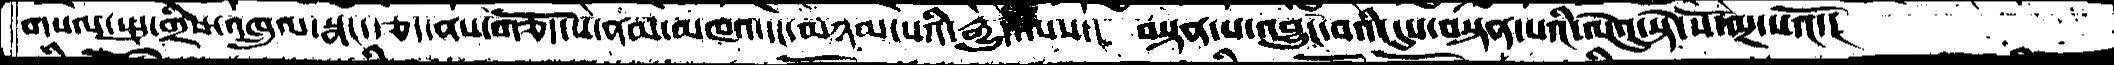གསལ་སྤུ་གྲིས་འཁྲུལ་སྣང་རྩད་ནས་གཅོད་པ་ནམ་མཁའ་དང་མཉམ་པའི་རྒྱུད་ལས་།  བསྟན་པ་འབྱུང་བའི་དུས་བསྟན་པའི་ལེའུ་སྟེ་སོ་ལྔ་པའོ་།
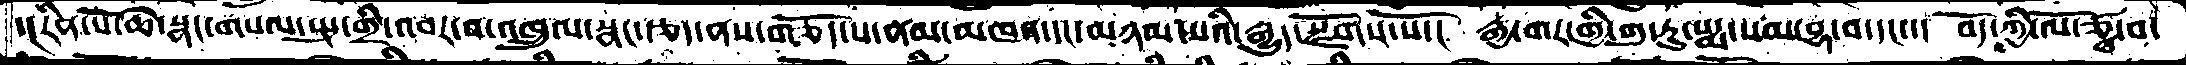་།རིན་པོ་ཆེ་སྣང་གསལ་སྤུ་གྲི་འབར་བ་འཁྲུལ་སྣང་རྩད་ནས་གཅོད་པ་ནམ་མཁའ་དང་མཉམ་པའི་རྒྱུད་སྫོགས་སོ་།  རྒྱ་གར་གྱི་གུ་རུ་པདྨ་སམ་བྷ་བ་དང་་།  བོད་ཀྱི་ལོ་ཙཱ་བ་
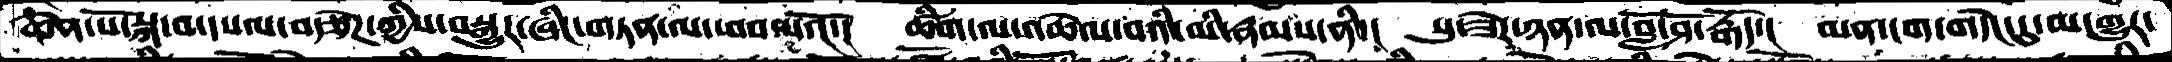ཆེན་པོ་སྐ་བ་དཔལ་བརྩེཌ་ཀྱིས་བསྒྱུར་ཞིང་གཏན་ལ་ཕབ་པའོ་།  ཚིག་ལ་འཆེལ་བའི་མི་རྣམས་ནི་།  སུ་ཟེར་ཉན་ལ་བློ་ཤོ་རྒོད་།  མན་ངག་གདེང་དུ་མ་གྱུར་
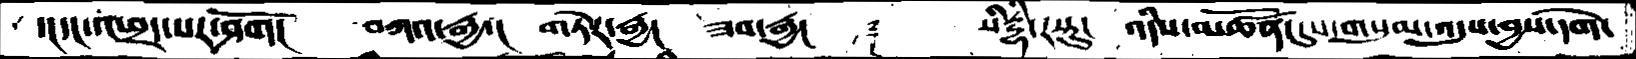་།དང་འཕྲད་པར་ཤོག།   བཀའ་རྒྱ་།  གཏེར་རྒྱ།  ཟབ་རྒྱ།   ༈  སིརྡྷི་རསཱུ།  འདིས་མཚོན་དུས་གསུམ་འདུས་བྱས་དགེ་
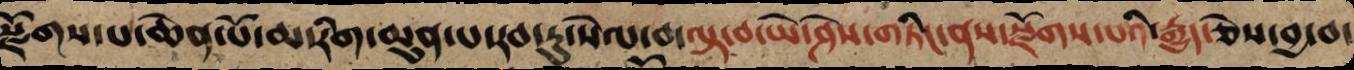རྫོགས་པ་ཆེན་པོ་མ་རིག་མུན་པ་རབ་ཏུ་སེལ་བ་ལྟ་བ་ཡེ་ཤེས་གཏིང་ནས་སྫོགས་པའི་རྒྱུད་ཅེས་བྱ་བ་
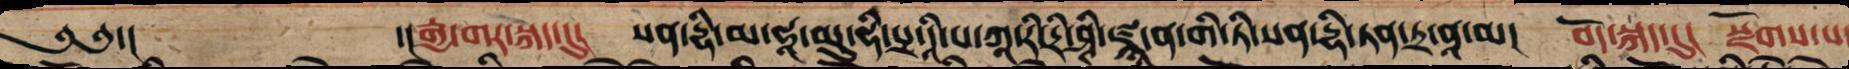༄༅་།  ་།རྒྱ་གར་སྐད་དུ། སན་དྷི་མ་ཧཱ་མུ་ཧི་པྲ་དཱི་ཀཱ་རི་ཤི་ཛྙ་ན་གི་ཏི་སན་དྷི་ཏན་ཏྲ་ནཱ་མ། བོད་སྐད་དུ།  སྫོགས་པ་
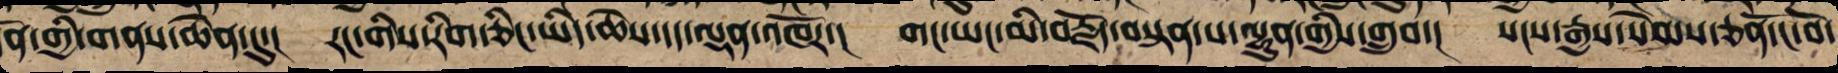དོན་གྱི་གནས་ཆེན་དུ་། རང་གིས་རིག་ཅིང་ཡིད་ཆེས་དད་ལྡན་འཁོར་། གང་ཡང་མི་བརྗོད་བསྟན་པ་ལྷུན་གྱིས་བཞུགས་། སངས་རྒྱས་སེམས་ཅན་ངོ་བོ་
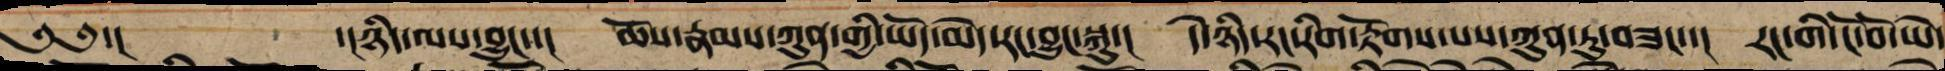༄༅་། ་།ཉིད་ལས་བྱུང་། ཆོས་རྣམས་ཀུན་གྱི་ཡོད་མེད་རང་བྱུང་སྐུ། དེ་ཉིད་རང་རིག་རྟོགས་པས་ཀུན་ཏུ་བཟང་། རང་གི་ངོ་བོ་ཡེ་
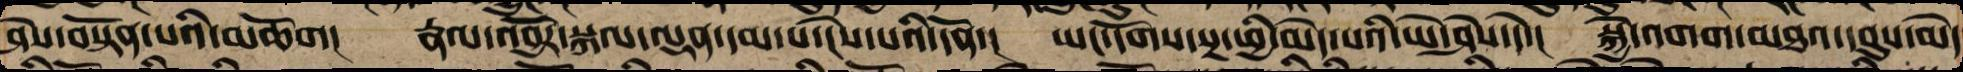ཤེས་བསྟོན་པའི་མཆོག།  རྣལ་འབྱོར་སྐལ་ལྡན་དམ་པ་ངེས་པའི་དོན་། ཡང་དོགས་སྔ་ཕྱི་མེད་པའི་ཡེ་ཤེས་དེ་། སྐྱེ་འགག་མཐའ་དབུས་མེད་
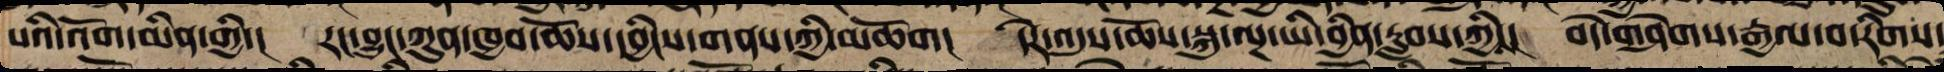པའི་འོག་མིན་གྱི་། རང་བྱུང་ཀུན་ཁྱབ་ཆོས་དབྱིངས་གནས་ཀྱི་མཆོག། དེར་འདུས་ཆོས་སྐུ་ལྔ་ཡི་བྱིན་རླབས་ཀྱིས་། བདེ་གཤེགས་རྒྱལ་བ་རིགས་
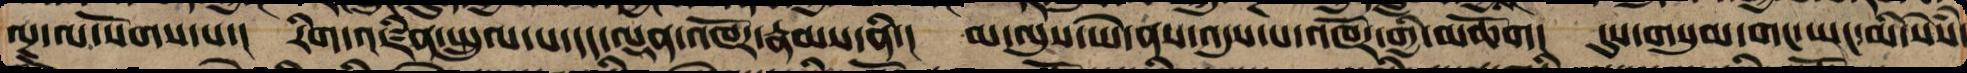ལྔ་ལ་སོགས་པ་། རིག་འཛིན་སྤྲུལ་པ་དད་ལྡན་འཁོར་རྣམས་ནི་། མ་ལུས་ཡེ་ནས་འདུས་པའི་འཁོར་གྱི་མཆོག། དུས་གསུམ་གང་ཡང་མི་སེྃས་
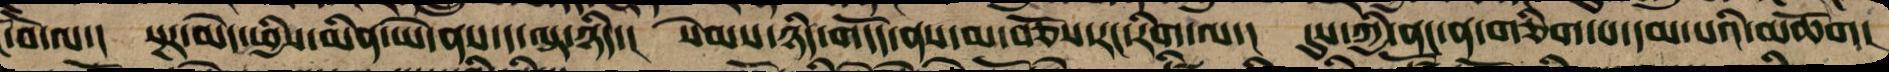ངོ་བོ་ལ་། སྔར་མེད་ཕྱིས་མིན་ཡེ་ནས་ད་ལྟ་ཉིད། སེམས་ཉིད་གདོད་ནས་མ་བཅོས་རང་རིག་ལ་། དུས་ཀྱི་ནང་ན་གཅིག་པ་དམ་པའི་མཆོག།
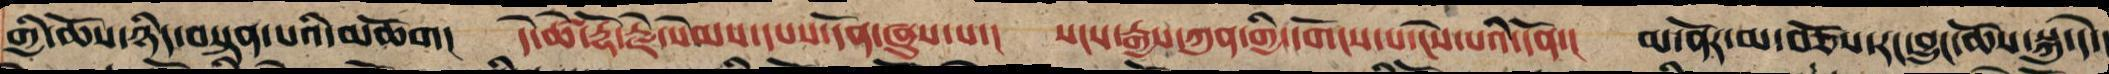གྱི་ཆོས་ཉིད་བསྟན་པའི་མཆོག། དེ་ཚེ་རྡོ་རྗེ་སེམས་དཔས་དོན་ཞུས་པ། སངས་རྒྱས་ཀུན་གྱི་དགོངས་པ་ངེས་པའི་དོན། མ་ནོར་མ་བཅོས་རང་བྱུང་ཆོས་སྐུ་དེ་།
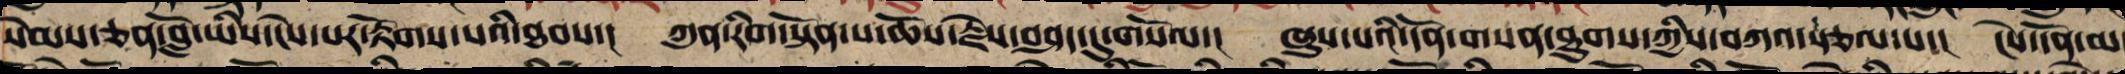སེམས་ཅན་བློ་ཡིས་ངེས་པར་རྟོགས་པའི་ཐབས་། ཀུན་རིག་སྟོན་པ་ཆོས་རྗེས་བཤད་དུ་གསོལ་། ཞུས་པའི་དོན་གསན་ཐུགས་ཀྱིས་བཀའ་སྩལ་པ་། ངེས་དོན་མ་
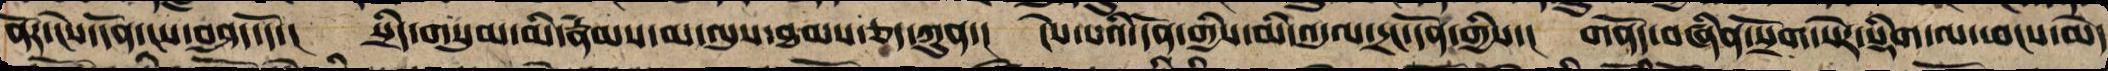ནོར་ངེས་དོན་ངས་བཤད་དོ་། སྲིད་གསུམ་མི་རྣམས་མ་ལུས་ཐམས་ཅད་ཀུན་། ངེས་པའི་དོན་གྱིས་མི་འདུལ་དྲང་དོན་གྱིས་། གནོད་བཞིན་སྲོག་སེར་སྡིག་ལ་ཕངས་མེད་
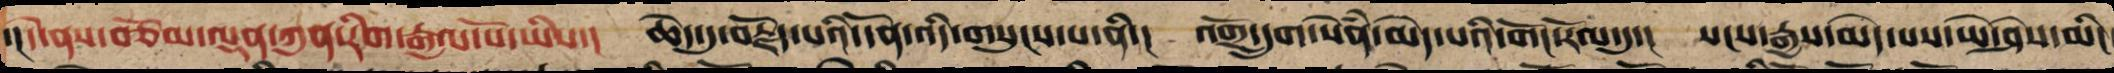་།དེ་ནས་བཅོམ་ལྡན་ཀུན་རིག་རྒྱལ་པོ་ཡིས་། ཆེད་དུ་བརྗོད་པའི་དོན་འདི་གསུངས་པ་ནི་། འགྲོ་དྲུག་སེམས་ཅན་མེད་པའི་གོང་རོལ་དུ་། སངས་རྒྱས་མེད་པས་ཡེ་ཤེས་མིང
